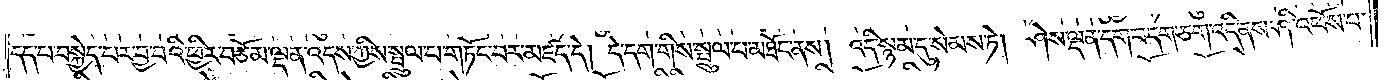དད་པ་བསྐྱེད་པར་བྱ་བའི་ཕྱིར་བཅོམ་ལྡན་འདས་ཀྱིས་སྤྲུལ་པ་གཏོང་བར་མཛད་དེ། དེ་དག་གིས་སྤྲུལ་བ་མཐོང་ནས། འདི་སྙམ་དུ་སེམས་ཏེ། ཤེས་ལྡན་དག་བདག་ཅག་འདི་ནས་ཤི་འཕོས་པ་
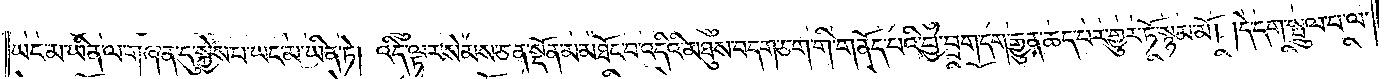ཡང་མ་ཡིན་ལ་གཞན་དུ་སྐྱེས་པ་ཡང་མ་ཡིན་ཏེ། འདི་ལྟར་སེམས་ཅན་སྔོན་མ་མཐོང་བ་འདིའི་མཐུས་བདག་ཅག་གི་གནོད་པའི་བྱེ་བྲག་དག་རྒྱུན་ཆད་པར་གྱུར་ཏོ་སྙམ་མོ། །དེ་དག་སྤྲུལ་པ་ལ་
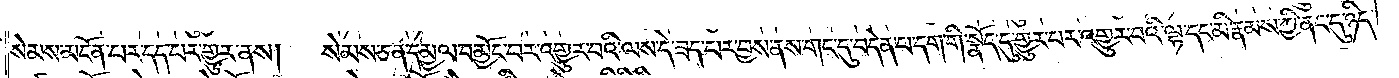སེམས་མངོན་པར་དད་པར་གྱུར་ནས།   སེམས་ཅན་དམྱལ་བ་མྱོང་བར་འགྱུར་བའི་ལས་དེ་ཟད་པར་བྱས་ནས་གང་དུ་བདེན་པ་དག་གི་སྣོད་དུ་གྱུར་པར་འགྱུར་བའི་ལྷ་དང་མི་རྣམས་ཀྱི་ནང་དུ་ཉིད་
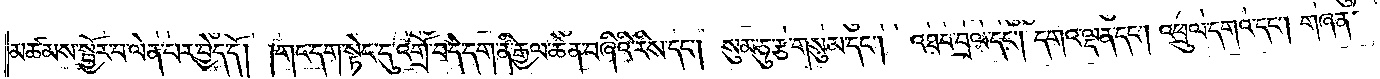མཚམས་སྦྱོར་བ་ལེན་པར་བྱེད་དོ། །གང་དག་སྟེང་དུ་འགྲོ་བ་དེ་དག་ནི་རྒྱལ་ཆེན་བཞིའི་རིས་དང༌། སུམ་ཅུ་རྩ་གསུམ་དང༌། འཐབ་བྲལ་དང༌། དགའ་ལྡན་དང༌། འཕྲུལ་དགའ་དང༌། གཞན་
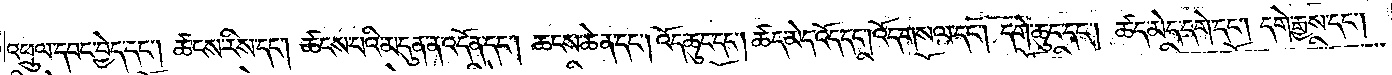འཕྲུལ་དབང་བྱེད་དང༌། ཚངས་རིས་དང༌། ཚངས་པའི་མདུན་ན་འདོན་དང༌། ཆངས་ཆེན་དང༌། འོད་ཆུང་དང༌། ཚད་མེད་འོད་དང༌།འོད་གསལ་དང༌། དགེ་ཆུང་དང༌། ཚད་མེད་དགེ་དང༌། དགེ་རྒྱས་དང༌།
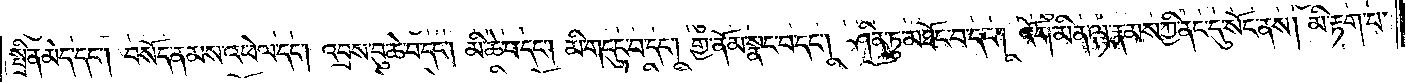སྤྲིན་མེད་དང༌། བསོད་ནམས་འཕེལ་དང༌། འབྲས་བུ་ཆེ་བ་དང༌། མི་ཆེ་བ་དང༌། མི་གདུང་བ་དང༌། གྱ་ནོམ་སྣང་བ་དང༌། ཤིན་ཏུ་མཐོང་བ་དང༌། འོག་མིན་ལྷ་རྣམས་ཀྱི་ནང་དུ་སོང་ནས། མི་རྟག་པ་
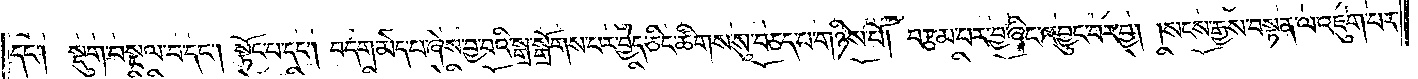དང༌། སྡུག་བསྔལ་བ་དང༌། སྟོང་པ་དང༌། བདག་མེད་པ་ཞེས་བྱ་བའི་སྒྲ་སྒྲོགས་པར་བྱེད་ཅིང་ཚིགས་སུ་བཅད་པ་གཉིས་པོ། བརྩམ་པར་བྱ་ཞིང་འབྱུང་བར་བྱ། །སངས་རྒྱས་བསྟན་ལ་འཇུག་པར་
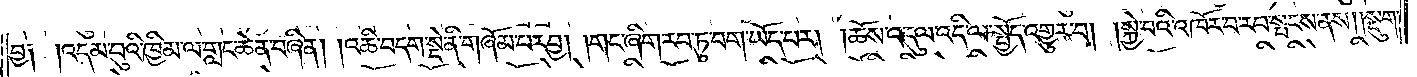བྱ༑ །འདམ་བུའི་ཁྱིམ་ལ་གླང་ཆེན་བཞིན། །འཆི་བདག་སྡེ་ནི་གཞོམ་པར་བྱ། །གང་ཞིག་རབ་ཏུ་བག་ཡོད་པར། །ཆོས་འདུལ་འདི་ལ་སྤྱོད་འགྱུར་བ། །སྐྱེ་བའི་འཁོར་བ་རབ་སྤངས་ནས། །སྡུག་
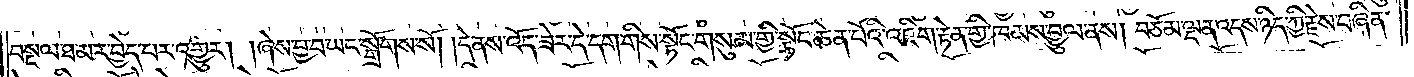བསྔལ་ཐ་མར་བྱེད་པར་འགྱུར། །ཞེས་བྱ་བ་ཡང་སྒྲོགས་སོ། །དེ་ནས་འོད་ཟེར་དེ་དག་གིས་སྟོང་གསུམ་གྱི་སྟོང་ཆེན་པོའི་འཇིག་རྟེན་གྱི་ཁམས་བྱུལ་ནས། བཅོམ་ལྡན་འདས་ཉིད་ཀྱི་རྗེས་བཞིན་
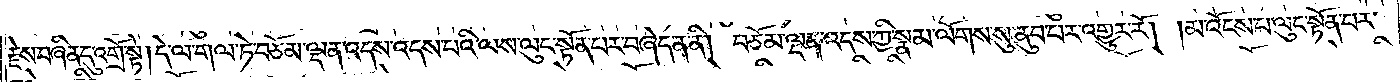རྗེས་བཞིན་དུ་འགྲོ་སྟེ། དེ་ལ་གལ་ཏེ་བཅོམ་ལྡན་འདས་འདས་པའི་ལས་ལུང་སྟོན་པར་བཞེད་ན་ནི། བཅོམ་ལྡན་འདས་ཀྱི་སྣམ་ལོགས་སུ་ནུབ་པར་འགྱུར་རོ། །མ་འོངས་པ་ལུང་སྟོན་པར་
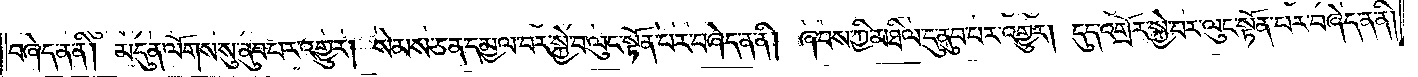བཞེད་ན་ནི། མདུན་ལོགས་སུ་ནུབ་པར་འགྱུར། སེམས་ཅན་དམྱལ་བར་སྐྱེ་བ་ལུང་སྟོན་པར་བཞེད་ན་ནི། ཞབས་ཀྱི་མཐིལ་དུ་ནུབ་པར་འགྱུར། དུད་འགྲོར་སྐྱེ་བར་ལུང་སྟོན་པར་བཞེད་ན་ནི།
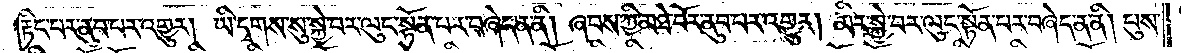རྟིང་པར་ནུབ་པར་འགྱུར། ཡི་དྭགས་སུ་སྐྱེ་བར་ལུང་སྟོན་པར་བཞེད་ན་ནི། ཞབས་ཀྱི་མཐེ་བོར་ནུབ་པར་འགྱུར། མིར་སྐྱེ་བར་ལུང་སྟོན་པར་བཞེད་ན་ནི། པུས་
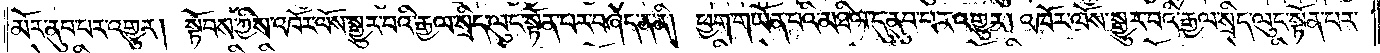མོར་ནུབ་པར་འགྱུར། སྟོབས་ཀྱིས་འཁོར་ལོས་སྒྱུར་བའི་རྒྱལ་སྲིད་ལུང་སྟོན་པར་བཞེད་ན་ནི། ཕྱག་གཡོན་པའི་མཐིལ་དུ་ནུབ་པར་འགྱུར། འཁོར་ལོས་སྒྱུར་བའི་རྒྱལ་སྲིད་ལུང་སྟོན་པར་
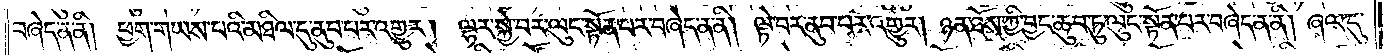བཞེད་ན་ནི། ཕྱག་གཡས་པའི་མཐིལ་དུ་ནུབ་པར་འགྱུར། ལྷར་སྐྱེ་བར་ལུང་སྟོན་པར་བཞེད་ན་ནི། ལྟེ་བར་ནུབ་པར་འགྱུར། ཉན་ཐོས་ཀྱིས་བྱང་ཆུབ་ཏུ་ལུང་སྟོན་པར་བཞེད་ན་ནི། ཞལ་དུ་
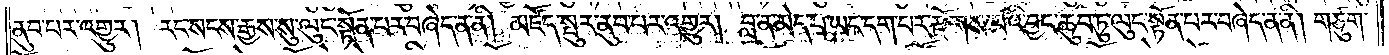ནུབ་པར་འགྱུར། རང་སངས་རྒྱས་སུ་ལུང་སྟོན་པར་བཞེད་ན་ནི། མཛོད་སྤུར་ནུབ་པར་འགྱུར། བླ་ན་མེད་པ་ཡང་དག་པར་རྫོགས་པའི་བྱང་ཆུབ་ཏུ་ལུང་སྟོན་པར་བཞེད་ན་ནི། གཙུག་
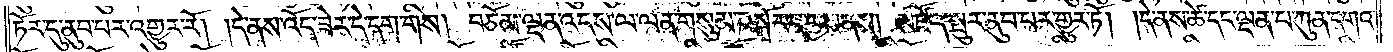ཏོར་དུ་ནུབ་པར་འགྱུར་རོ། །དེ་ནས་འོད་ཟེར་དེ་དག་གིས། བཅོམ་ལྡན་འདས་ལ་ལན་གསུམ་བསྐོར་བ་བྱས་ནས། མཛོད་སྤུར་ནུབ་པར་གྱུར་ཏོ། །དེ་ནས་ཚེ་དང་ལྡན་པ་ཀུན་དགའ་
